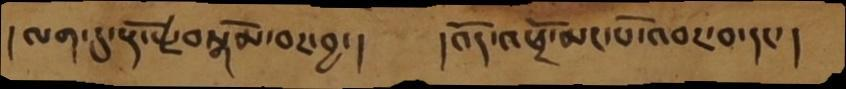།ལག་དུ་རྡོ་རྗེ་བསྒོམ་བར་བྱ་།    །འོད་འཕྲོ་མང་པོ་འབར་བ་དང་།
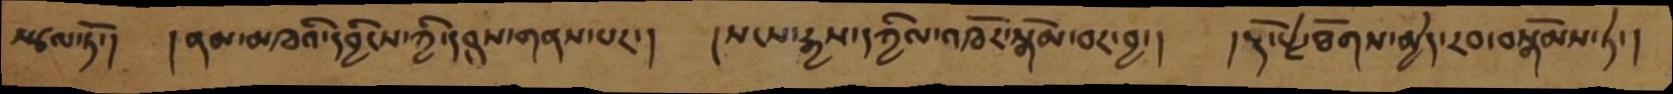སྩལ་ཏོ་།  །ནམ་མཁའི་དབྱིངས་ཀྱི་དབུས་གནས་པར་།  །སངས་རྒྱས་དཀྱིལ་འཁོར་སྒོམ་བར་བྱ་།  །རྡོ་རྗེ་ཐོགས་མྱེད་རབ་བསྒོམས་ཏེ་།
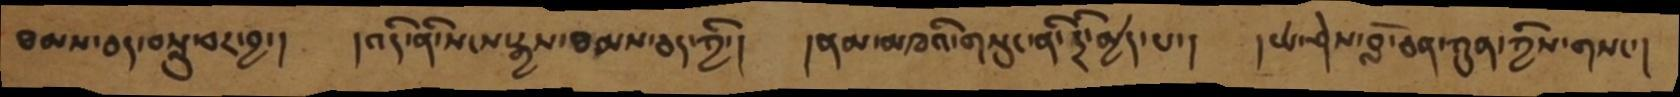ཐམས་ཅད་བསླུ་བར་བྱ་།   །འདི་ནི་སངས་རྒྱས་ཐམས་ཅད་ཀྱི་།    །ནམ་མཁའི་གསུང་ནི་དྲི་མྱེད་པ་།    །ཡེ་ཤེས་བློ་ཅན་ཀུན་ཀྱིས་གསང་།
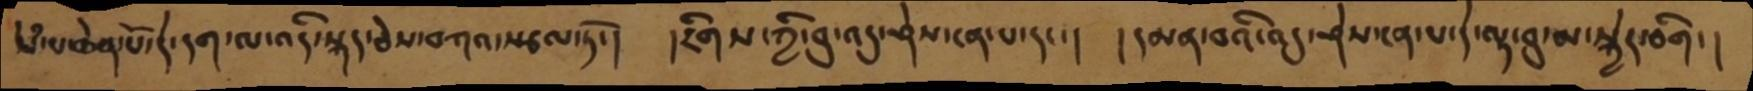སེཾ་པ་ཆེན་པོ་དེ་དག་ལ་འདི་སྐད་ཅེས་བཀའ་སྩལ་ཏོ་།  །རིགས་ཀྱི་བུ་འདུ་ཤེས་ངན་པ་དང་།  །དམན་བའི་འདུ་ཤེས་ངན་པ་དེ་ལྟ་བུ་མ་སྐྱེད་ཅིག་།
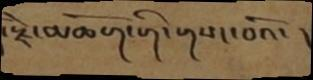་རྗེ་མཆོག་གི་གསང་བའོ་།
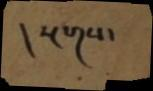།སྔགས་
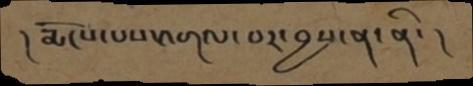། རྨོངས་པས་འགལ་བར་བྱས་ན་ནི་།
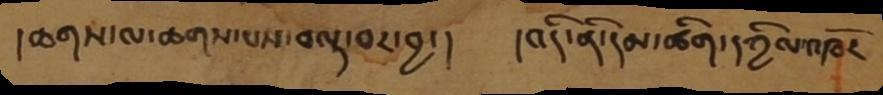།ཆགས་ལ་ཆགས་པས་བལྟ་བར་བྱ་།   །འདི་ནི་དམ་ཚིག་དཀྱིལ་འཁོར
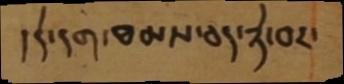།དེ་དག་ཐམས་ཅད་ཉེ་བར་
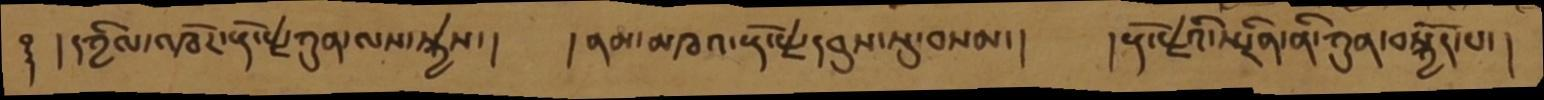࿑  །དཀྱིལ་འཁོར་རྡོ་རྗེ་ཀུན་ལས་སྐྱེས་།    །ནམ་མཁའ་རྡོ་རྗེ་དབུས་སུ་བསམ་།   །རྡོ་རྗེ་སྤྲིན་ནི་ཀུན་བསྐྱོད་པ་།
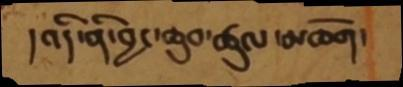།འདི་ནི་བྱང་ཆུབ་ཚུལ་མཆོག་
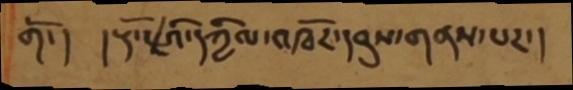གོ་།  །རྡོ་རྗེའི་དཀྱིལ་འཁོར་དབུས་གནས་པར་།
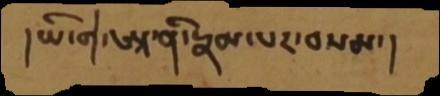།ཡི་གེ་ཨཱ་ནི་རྣམ་པར་བསམ་།
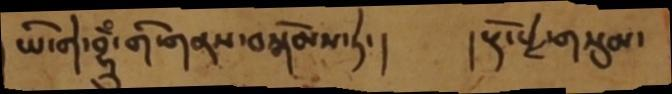ཡི་གེ་བྷྲུྃ་གི་གནས་བསྒོམས་ཏེ་།        །རྡོ་རྗེ་གསུམ་
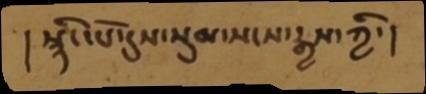།སྙིང་པོ་དུས་སུམ་སངས་རྒྱས་ཀྱི་།
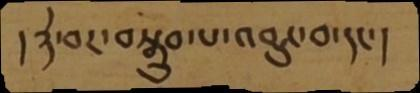།ཉེ་བར་བསྒྲུབ་པ་འབྱུང་བ་དང་།
